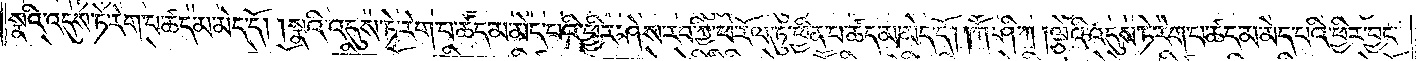སྣའི་འདུས་ཏེ་རེག་པ་ཚད་མ་མེད་དོ། །སྣའི་འདུས་ཏེ་རེག་པ་ཚད་མ་མེད་པའི་ཕྱིར་ཤེས་རབ་ཀྱི་ཕ་རོལ་ཏུ་ཕྱིན་པ་ཚད་མ་མེད་དོ། །ཀཽ་ཤི་ཀ །ལྕེའི་འདུས་ཏེ་རེག་པ་ཚད་མ་མེད་པའི་ཕྱིར་བྱང་
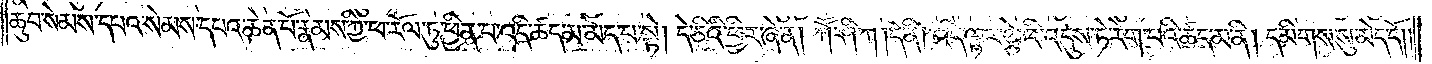ཆུབ་སེམས་དཔའ་སེམས་དཔའ་ཆེན་པོ་རྣམས་ཀྱི་ཕ་རོལ་ཏུ་ཕྱིན་པ་འདི་ཚད་མ་མེད་པ་སྟེ། དེ་ཅིའི་ཕྱིར་ཞེ་ན། ཀཽ་ཤི་ཀ །དེ་ནི། འདི་ལྟར་ལྕེའི་འདུས་ཏེ་རེག་པའི་ཚད་མ་ནི། དམིགས་སུ་མེད་དོ༎
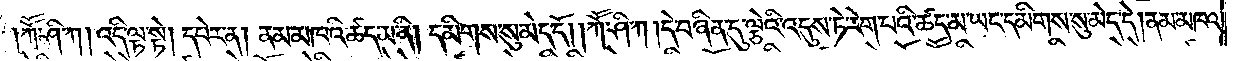ཀཽ་ཤི་ཀ། འདི་ལྟ་སྟེ། དཔེར་ན། ནམ་མཁའི་ཚད་མ་ནི། དམིགས་སུ་མེད་དོ། །ཀཽ་ཤི་ཀ །དེ་བཞིན་དུ་ལྕེའི་འདུས་ཏེ་རེག་པའི་ཚད་མ་ཡང་དམིགས་སུ་མེད་དེ། ནམ་མཁའ་
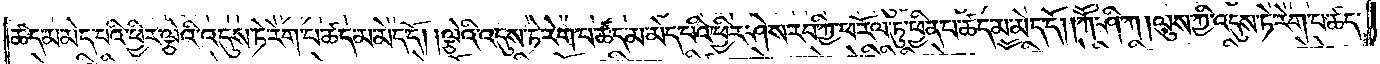ཚད་མ་མེད་པའི་ཕྱིར་ལྕེའི་འདུས་ཏེ་རེག་པ་ཚད་མ་མེད་དོ། །ལྕེའི་འདུས་ཏེ་རེག་པ་ཚད་མ་མེད་པའི་ཕྱིར་ཤེས་རབ་ཀྱི་ཕ་རོལ་ཏུ་ཕྱིན་པ་ཚད་མ་མེད་དོ། །ཀཽ་ཤི་ཀ །ལུས་ཀྱི་འདུས་ཏེ་རེག་པ་ཚད་
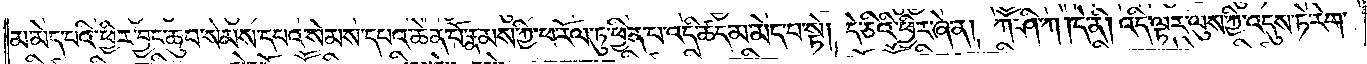མ་མེད་པའི་ཕྱིར་བྱང་ཆུབ་སེམས་དཔའ་སེམས་དཔའ་ཆེན་པོ་རྣམས་ཀྱི་ཕ་རོལ་ཏུ་ཕྱིན་པ་འདི་ཚད་མ་མེད་པ་སྟེ། དེ་ཅིའི་ཕྱིར་ཞེ་ན། ཀཽ་ཤི་ཀ །དེ་ནི། འདི་ལྟར་ལུས་ཀྱི་འདུས་ཏེ་རེག་
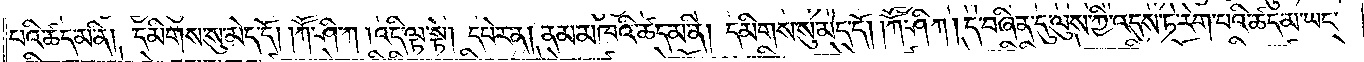པའི་ཚད་མ་ནི། དམིགས་སུ་མེད་དོ། །ཀཽ་ཤི་ཀ །འདི་ལྟ་སྟེ། དཔེར་ན། ནམ་མཁའི་ཚད་མ་ནི། དམིགས་སུ་མེད་དོ། །ཀཽ་ཤི་ཀ །དེ་བཞིན་དུ་ལུས་ཀྱི་འདུས་ཏེ་རེག་པའི་ཚད་མ་ཡང་
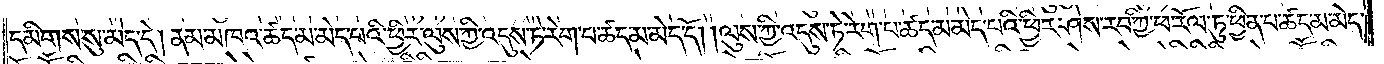དམིགས་སུ་མེད་དེ། ནམ་མཁའ་ཚད་མ་མེད་པའི་ཕྱིར་ལུས་ཀྱི་འདུས་ཏེ་རེག་པ་ཚད་མེད་དོ། །ལུས་ཀྱི་འདུས་ཏེ་རེག་པ་ཚད་མ་མེད་པའི་ཕྱིར་ཤེས་རབ་ཀྱི་ཕ་རོལ་ཏུ་ཕྱིན་པ་ཚད་མ་མེད་
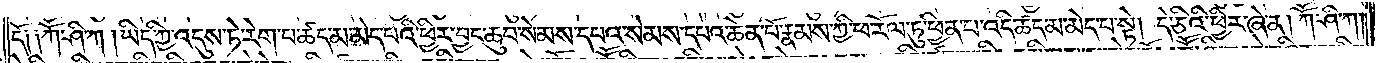དོ༏ ༏ཀཽ་ཤི་ཀ །ཡིད་ཀྱི་འདུས་ཏེ་རེག་པ་ཚད་མ་མེད་པའི་ཕྱིར་བྱང་ཆུབ་སེམས་དཔའ་སེམས་དཔའ་ཆེན་པོ་རྣམས་ཀྱི་ཕ་རོལ་ཏུ་ཕྱིན་པ་འདི་ཚད་མ་མེད་པ་སྟེ། དེ་ཅིའི་ཕྱིར་ཞེ་ན། ཀཽ་ཤི་ཀ།
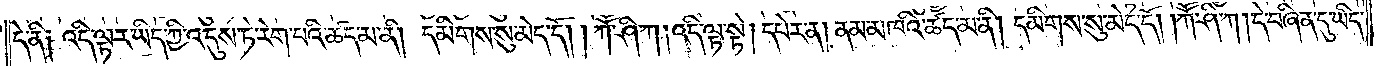དེ་ནི༏ འདི་ལྟར་ཡིད་ཀྱི་འདུས་ཏེ་རེག་པའི་ཚད་མ་ནི། དམིགས་སུ་མེད་དོ། །ཀཽ་ཤི་ཀ །འདི་ལྟ་སྟེ། དཔེར་ན། ནམ་མཁའི་ཚད་མ་ནི། དམིགས་སུ་མེད་དོ། །ཀཽ་ཤི་ཀ །དེ་བཞིན་དུ་ཡིད་
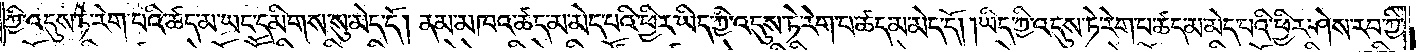ཀྱི་འདུས་ཏེ་རེག་པའི་ཚད་མ་ཡང་དམིགས་སུ་མེད་དོ། ནམ་མཁའ་ཚད་མ་མེད་པའི་ཕྱིར་ཡིད་ཀྱི་འདུས་ཏེ་རེག་པ་ཚད་མ་མེད་དོ། །ཡིད་ཀྱི་འདུས་ཏེ་རེག་པ་ཚད་མ་མེད་པའི་ཕྱིར་ཤེས་རབ་ཀྱི་
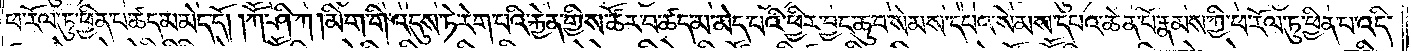ཕ་རོལ་ཏུ་ཕྱིན་པ་ཚད་མ་མེད་དོ། །ཀཽ་ཤི་ཀ །མིག་གི་འདུས་ཏེ་རེག་པའི་རྐྱེན་གྱིས་ཚོར་བ་ཚད་མ་མེད་པའི་ཕྱིར་བྱང་ཆུབ་སེམས་དཔའ་སེམས་དཔའ་ཆེན་པོ་རྣམས་ཀྱི་ཕ་རོལ་ཏུ་ཕྱིན་པ་འདི་
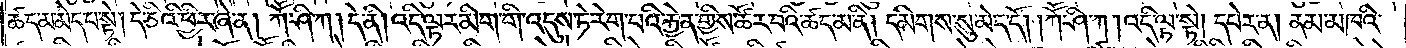ཚད་མ་མེད་པ་སྟེ། དེ་ཅིའི་ཕྱིར་ཞེ་ན། ཀཽ་ཤི་ཀ །དེ་ནི། འདི་ལྟར་མིག་གི་འདུས་ཏེ་རེག་པའི་རྐྱེན་གྱིས་ཚོར་བའི་ཚད་མ་ནི། དམིགས་སུ་མེད་དོ། །ཀཽ་ཤི་ཀ །འདི་ལྟ་སྟེ། དཔེར་ན། ནམ་མཁའི་
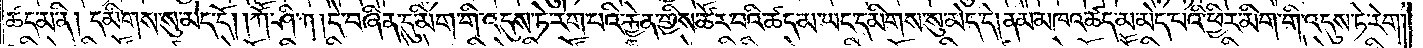ཚད་མ་ནི། དམིགས་སུ་མེད་དོ། །ཀཽ་ཤི་ཀ །དེ་བཞིན་དུ་མིག་གི་འདུས་ཏེ་རེག་པའི་རྐྱེན་གྱིས་ཚོར་བའི་ཚད་མ་ཡང་དམིགས་སུ་མེད་དེ། ནམ་མཁའ་ཚད་མ་མེད་པའི་ཕྱིར་མིག་གི་འདུས་ཏེ་རེག་
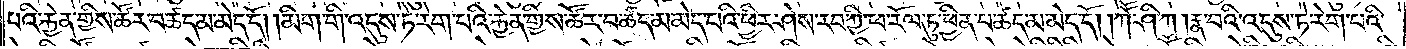པའི་རྐྱེན་གྱིས་ཚོར་བ་ཚད་མ་མེད་དོ། །མིག་གི་འདུས་ཏེ་རེག་པའི་རྐྱེན་གྱིས་ཚོར་བ་ཚད་མ་མེད་པའི་ཕྱིར་ཤེས་རབ་ཀྱི་ཕ་རོལ་ཏུ་ཕྱིན་པ་ཚད་མ་མེད་དོ། །ཀཽ་ཤི་ཀ །རྣ་བའི་འདུས་ཏེ་རེག་པའི་
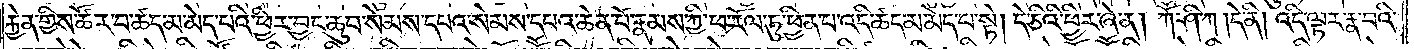རྐྱེན་གྱིས་ཚོར་བ་ཚད་མ་མེད་པའི་ཕྱིར་བྱང་ཆུབ་སེམས་དཔའ་སེམས་དཔའ་ཆེན་པོ་རྣམས་ཀྱི་ཕ་རོལ་ཏུ་ཕྱིན་པ་འདི་ཚད་མ་མེད་པ་སྟེ། དེ་ཅིའི་ཕྱིར་ཞེ་ན། ཀཽ་ཤི་ཀ །དེ་ནི། འདི་ལྟར་རྣ་བའི་
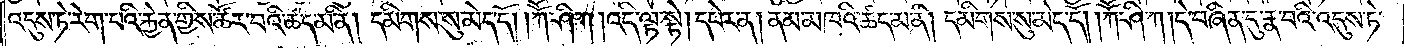འདུས་ཏེ་རེག་པའི་རྐྱེན་གྱིས་ཚོར་བའི་ཚད་མ་ནི། དམིགས་སུ་མེད་དོ། །ཀཽ་ཤི་ཀ །འདི་ལྟ་སྟེ། དཔེར་ན། ནམ་མཁའི་ཚད་མ་ནི། དམིགས་སུ་མེད་དོ། །ཀཽ་ཤི་ཀ །དེ་བཞིན་དུ་རྣ་བའི་འདུས་ཏེ་
